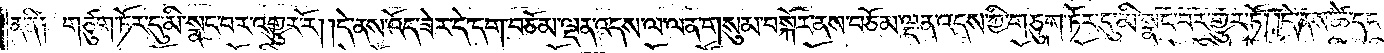ན་ནི། གཙུག་ཏོར་དུ་མི་སྣང་བར་འགྱུར་རོ། །དེ་ནས་འོད་ཟེར་དེ་དག་བཅོམ་ལྡན་འདས་ལ་ལན་གསུམ་བསྐོར་ནས་བཅོམ་ལྡན་འདས་ཀྱི་གཙུག་ཏོར་དུ་མི་སྣང་བར་གྱུར་ཏོ། །དེ་ནས་ཚེ་དང་
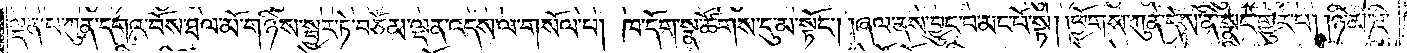ལྡན་པ་ཀུན་དགའ་བོས་ཐལ་མོ་གཉིས་སྦྱར་ཏེ་བཅོམ་ལྡན་འདས་ལ་གསོལ་པ། ཁ་དོག་སྣ་ཚོགས་དུ་མ་སྟོང༌། །ཞལ་ནས་བྱུང་བ་མང་པོ་སྟེ། །ཕྱོགས་ཀུན་དེས་ནི་སྣང་གྱུར་པ། །ཉི་མ་ཇི་
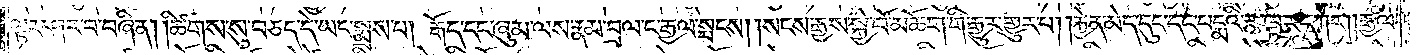ལྟར་ཤར་བ་བཞིན། །ཚིགས་སུ་བཅད་དེ་ཡང་སྨྲས་པ། རྒོད་དང་ཞུམ་ལས་རྣམ་བྲལ་ང་རྒྱལ་སྤངས། །སངས་རྒྱས་སྐྱེ་བོ་མཆོག་གི་རྒྱུར་གྱུར་པ། །རྐྱེན་མེད་དུང་དང་པདྨའི་རྩ་ལྟར་དཀར། །རྒྱལ་
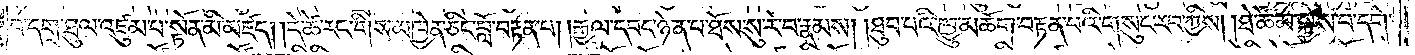བ་དགྲ་ཐུལ་འཛུམ་པ་སྟོན་མི་མཛད། །དེ་ཚེ་རང་གིས་མཁྱེན་ཅིང་བློ་བརྟན་པ། །རྒྱལ་དབང་ཉེན་པ་ཐོས་སུ་རེ་བ་རྣམས། །ཐུབ་པའི་ཁྱུ་མཆོག་བརྟན་པའི་གསུང་རབ་ཀྱིས། །ཐེ་ཚོམ་སྐྱེས་པ་དགེ་
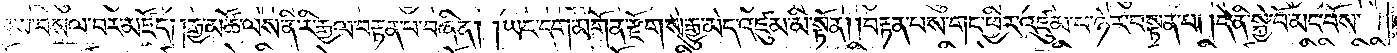བས་བསལ་བར་མཛོད། །རྒྱ་མཚོ་ལས་ནི་རི་རྒྱལ་བརྟན་པ་བཞིན། །ཡང་དག་མགོན་རྫོགས་རྒྱུ་མེད་འཛུམ་མི་སྟོན། །བརྟན་པས་གང་ཕྱིར་འཛུམ་པ་ཉེ་བར་བསྟན་པ། །དེ་ནི་སྐྱེ་བོ་མང་པོས་
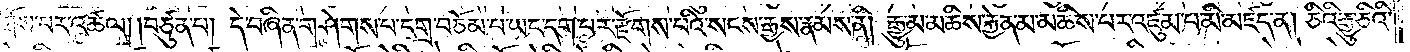ཐོས་པར་འཚལ། །བཙུན་པ། དེ་བཞིན་གཤེགས་པ་དགྲ་བཅོམ་པ་ཡང་དག་པར་རྫོགས་པའི་སངས་རྒྱས་རྣམས་ནི། རྒྱུ་མ་མཆིས་རྐྱེན་མ་མཆིས་པར་འཛུམ་པ་མི་མཛད་ན། ཅིའི་རྒྱུ་ཅིའི་
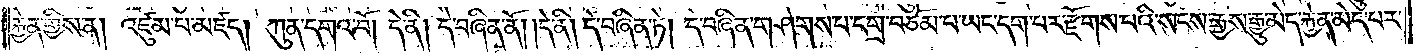རྐྱེན་གྱིས་ན། འཛུམ་པ་མཛད། ཀུན་དགའ་བོ། དེ་ནི། དེ་བཞིན་ནོ། །དེ་ནི། དེ་བཞིན་ཏེ། དེ་བཞིན་གཤེགས་པ་དགྲ་བཅོམ་པ་ཡང་དག་པར་རྫོགས་པའི་སངས་རྒྱས་རྒྱུ་མེད་རྐྱེན་མེད་པར་
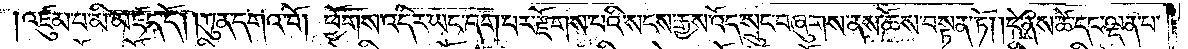འཛུམ་པ་མི་མཛད་དོ། །ཀུན་དགའ་བོ། ཕྱོགས་འདིར་ཡང་དག་པར་རྫོགས་པའི་སངས་རྒྱས་འོད་སྲུང་བཞུགས་ནས་ཆོས་བསྟན་ཏོ། །དེ་ནས་ཚེ་དང་ལྡན་པ་
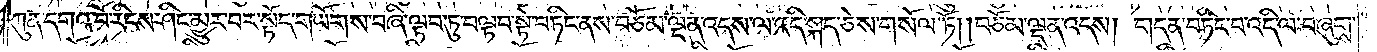ཀུན་དགའ་བོ་རིངས་ཤིང་མྱུར་བར་སྟོད་གཡོགས་བཞི་ལྟབ་ཏུ་བལྟབ་སྟེ་བཏིང་ནས་བཅོམ་ལྡན་འདས་ལ་འདི་སྐད་ཅེས་གསོལ་ཏོ། །བཅོམ་ལྡན་འདས། གདན་བཏིང་བ་འདི་ལ་བཞུགས་
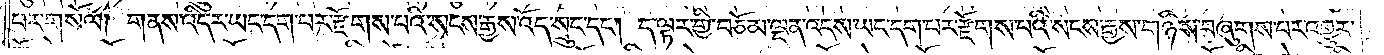པར་གསོལ། གནས་འདིར་ཡང་དག་པར་རྫོགས་པའི་སངས་རྒྱས་འོད་སྲུང་དང༌། ད་ལྟར་གྱི་བཅོམ་ལྡན་འདས་ཡང་དག་པར་རྫོགས་པའི་སངས་རྒྱས་གཉིས་བཞུགས་པར་འགྱུར་
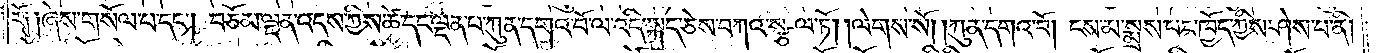རོ༑ ༑ཞེས་གསོལ་པ་དང༌། བཅོམ་ལྡན་འདས་ཀྱིས་ཚེ་དང་ལྡན་པ་ཀུན་དགའ་བོ་ལ་འདི་སྐད་ཅེས་བཀའ་སྩལ་ཏོ། །ལེགས་སོ། །ཀུན་དགའ་བོ། ངས་མ་སྨྲས་པར་ཁྱོད་ཀྱིས་ཤེས་པ་ནི།
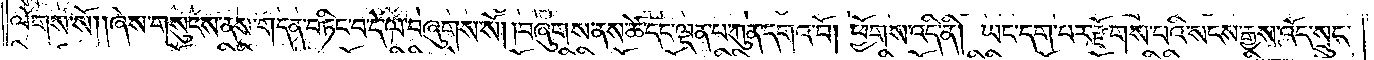ལེགས་སོ། །ཞེས་གསུངས་ནས་གདན་བཏིང་བ་དེ་ལ་བཞུགས་སོ། །བཞུགས་ནས་ཚེ་དང་ལྡན་པ་ཀུན་དགའ་བོ། ཕྱོགས་འདི་ནི། ཡང་དག་པར་རྫོགས་པའི་སངས་རྒྱས་འོད་སྲུང་
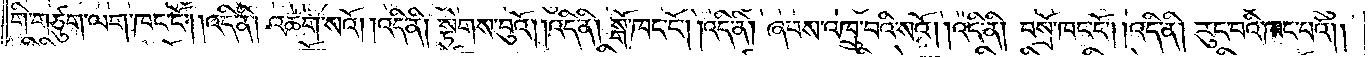གི་གཙུག་ལག་ཁང་ངོ༌། །འདི་ནི། འཆག་སའོ། །འདི་ནི། སྟེགས་བུའོ། །འདི་ནི། སྒོ་ཁང་ངོ༌། །འདི་ནི། ཞབས་འཁྲུ་བའི་སའོ། །འདི་ནི། བསྲོ་ཁང་ངོ༌། །འདི་ནི། རུང་བའི་ཁང་པའོ། །
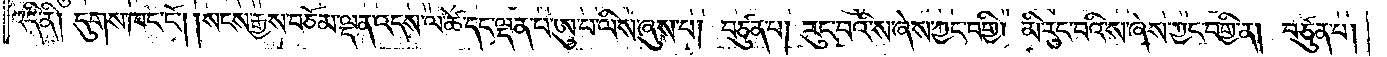འདི་ནི། དུགས་ཁང་ངོ༌། །སངས་རྒྱས་བཅོམ་ལྡན་འདས་ལ་ཚེ་དང་ལྡན་པ་ཨུ་པ་ལིས་ཞུས་པ། བཙུན་པ། རུང་བའི་ས་ཞེས་ཀྱང་བགྱི། མི་རུང་བའི་ས་ཞེས་ཀྱང་བགྱི་ན། བཙུན་པ།
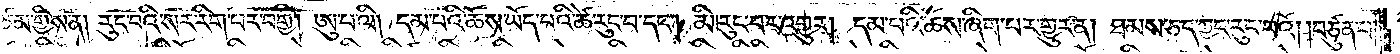ཇི་ཙམ་གྱིས་ན། རུང་བའི་སར་རིག་པར་བགྱི། ཨུ་པ་ལི། དམ་པའི་ཆོས་ཡོད་པའི་ཚེ་རུང་བ་དང༌། མི་རུང་བར་འགྱུར། དམ་པའི་ཆོས་ཞིག་པར་གྱུར་ན། ཐམས་ཅད་ཀྱང་རུང་བའོ། །བཙུན་པ།
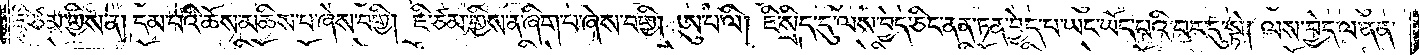ཇི་ཙམ་གྱིས་ན། དམ་པའི་ཆོས་མཆིས་པ་ཞེས་བགྱི། ཇི་ཙམ་གྱིས་ན་ཞིག་པ་ཞེས་བགྱི་ན། ཨུ་པ་ལི། ཇི་སྲིད་དུ་ལས་བྱེད་ཅིང་ནན་ཏན་བྱེད་པ་ཡང་ཡོད་པའི་བར་དུ་སྟེ། ལས་བྱེད་ལ་ནན་
